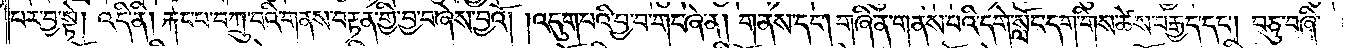པར་བྱ་སྟེ། འདི་ནི། རྐང་པ་བཀྲུ་བའི་གནས་བརྟན་གྱི་བྱ་བ་ཞེས་བྱའོ། །འདུག་པའི་བྱ་བ་གང་ཞེ་ན། གནས་དང༌། གཞི་ན་གནས་པའི་དགེ་སློང་དག་གིས་ཚེས་བརྒྱད་དང༌། བཅུ་བཞི་
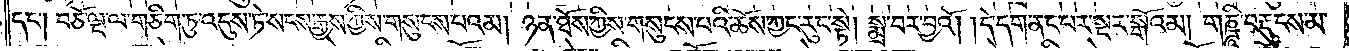དང༌། བཅོ་ལྔ་ལ་གཅིག་ཏུ་འདུས་ཏེ་སངས་རྒྱས་ཀྱིས་གསུངས་པའམ། ཉན་ཐོས་ཀྱིས་གསུངས་པའི་ཆོས་ཀྱང་རུང་སྟེ། སྨྲ་བར་བྱའོ། །དེ་དག་ནང་པར་སྔར་སྒོའམ། གཎྜཱི་བརྡུངས་མ་
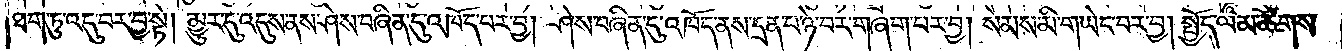ཐག་ཏུ་འདུ་བར་བྱ་སྟེ། མྱུར་དུ་འདུས་ནས་ཤེས་བཞིན་དུ་འཁོད་པར་བྱ། ཤེས་བཞིན་དུ་འཁོད་ནས་དྲན་པ་ཉེ་བར་གཞག་པར་བྱ། སེམས་མི་གཡེང་བར་བྱ། སྤྱོད་ལམ་ཚོགས་
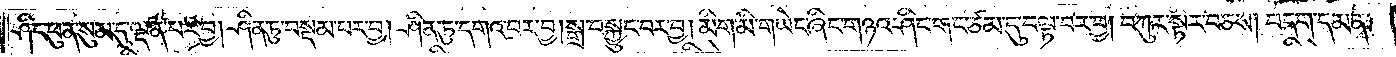ཤིང་ཕུན་སུམ་དུ་ལྡན་པར་བྱ། ཤིན་ཏུ་བསྡམ་པར་བྱ། ཤིན་ཏུ་དགའ་བར་བྱ། སྒྲ་བསྐྱུང་བར་བྱ། མིག་མི་གཡེང་ཞིང་གཉའ་ཤིང་གང་ཙམ་དུ་བལྟ་བར་བྱ། བཀུར་སྟིར་བཅས། བདག་དམན་
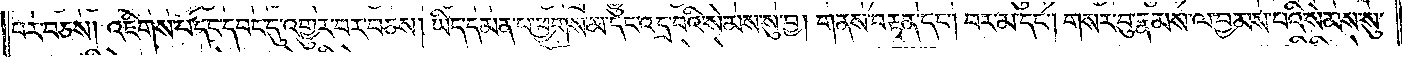པར་བཅས། འཇིགས་པ་དང་དབང་དུ་འགྱུར་བར་བཅས། ཡིད་དམན་པ་ཕྱགས་མ་དང་འདྲ་བའི་སེམས་སུ་བྱ། གནས་བརྟན་དང༌། བར་མ་དང༌། གསར་བུ་རྣམས་ལ་བྱམས་པའི་སེམས་སུ་
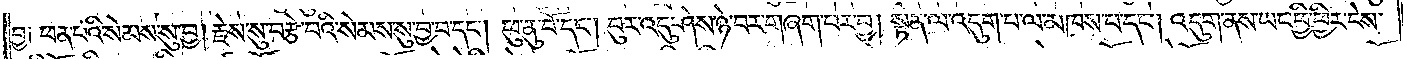བྱ། ཕན་པའི་སེམས་སུ་བྱ། རྗེས་སུ་བརྩེ་བའི་སེམས་སུ་བྱ་བ་དང༌། ཕུ་ནུ་བོ་དང༌། བུར་འདུ་ཤེས་ཉེ་བར་གཞག་པར་བྱ། སྟན་ལ་འདུག་པ་ལ་མཁས་པ་དང༌། འདུག་ནས་ཡང་ཕྱི་ཕྱིར་ངེས་
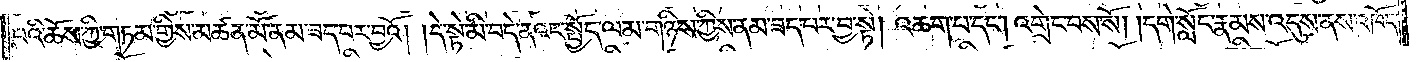པའི་ཆོས་ཀྱི་གཏམ་གྱིས་མཚན་མོ་ནམ་ཟད་པར་བྱའོ། །དེ་སྟེ་མི་བདེ་ནའང་སྤྱོད་ལམ་གཉིས་ཀྱིས་ནམ་ཟད་པར་བྱ་སྟེ། འཆག་པ་དང༌། འགྲེང་བས་སོ། །དགེ་སློང་རྣམས་འདུས་ནས་འཁོད་
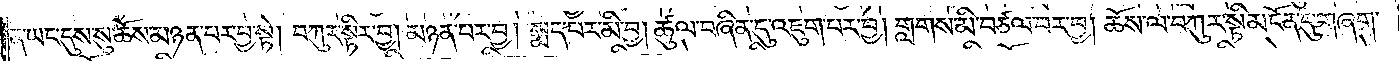ན་ཡང་དུས་སུ་ཆོས་མཉན་པར་བྱ་སྟེ། བཀུར་སྟིར་བྱ། མཉན་པར་བྱ། སྨད་པར་མི་བྱ། ཚུལ་བཞིན་དུ་འཇུག་པར་བྱ། གླགས་མི་བཙལ་བར་བྱ། ཆོས་ལ་བཀུར་སྟི་མངོན་དུ་གཞག་
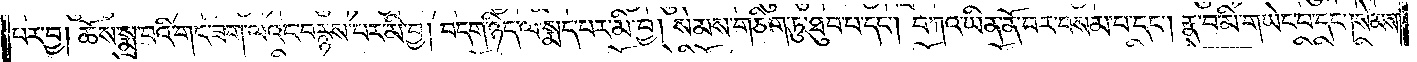པར་བྱ། ཆོས་སྨྲ་བའི་གང་ཟག་ལའང་བརྙས་པར་མི་བྱ། བདག་ཉིད་ལ་སྨད་པར་མི་བྱ། སེམས་གཅིག་ཏུ་ཐུབ་པ་དང༌། བཀའ་ཡིན་ནོ་བར་བསམ་པ་དང༌། རྣ་བ་མི་གཡེང་བ་དང༌། སེམས་
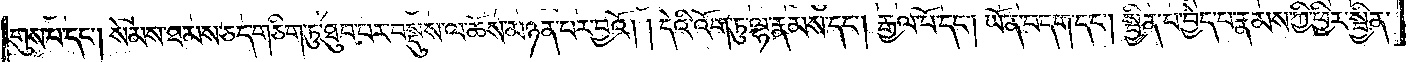གུས་པ་དང༌། སེམས་ཐམས་ཅད་གཅིག་ཏུ་ཐུབ་པར་བསྡུས་ལ་ཆོས་མཉན་པར་བྱའོ། །དེའི་འོག་ཏུ་ལྷ་རྣམས་དང༌། རྒྱལ་པོ་དང༌། ཡོན་བདག་དང༌། སྦྱིན་པ་བྱེད་པ་རྣམས་ཀྱི་ཕྱིར་སྦྱིན་
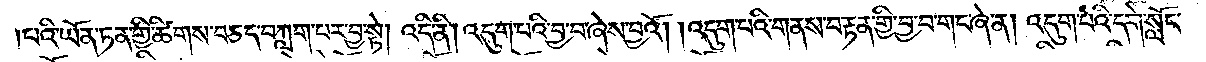པའི་ཡོན་ཏན་གྱི་ཚིགས་བཅད་བཀླག་པར་བྱ་སྟེ། འདི་ནི། འདུག་པའི་བྱ་བ་ཞེས་བྱའོ། །འདུག་པའི་གནས་བརྟན་གྱི་བྱ་བ་གང་ཞེ་ན། འདུག་པའི་དགེ་སློང་
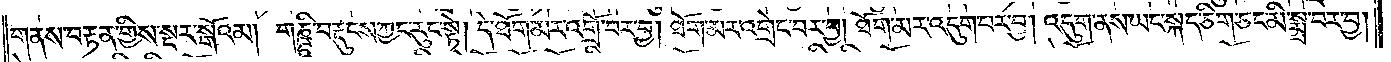གནས་བརྟན་གྱིས་སྔར་སྒོའམ། གཎྜཱི་བརྡུངས་ཀྱང་རུང་སྟེ། དེ་ཐོག་མར་འགྲོ་བར་བྱ། ཐོག་མར་འགྲེང་བར་བྱ། ཐོག་མར་འདུག་པར་བྱ། འདུག་ནས་ཡང་སྐད་ཅིག་ཅང་མི་སྨྲ་བར་བྱ།
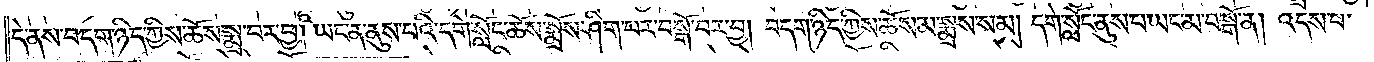དེ་ནས་བདག་ཉིད་ཀྱིས་ཆོས་སྨྲ་བར་བྱ། ཡང་ན་ནུས་པའི་དགེ་སློང་ཆོས་སྨྲོས་ཤིག་པར་བསྒོ་བར་བྱ། བདག་ཉིད་ཀྱིས་ཆོས་མ་སྨྲས་སམ། དགེ་སློང་ནུས་པ་ཡང་མ་བསྒོ་ན། འདས་པ་
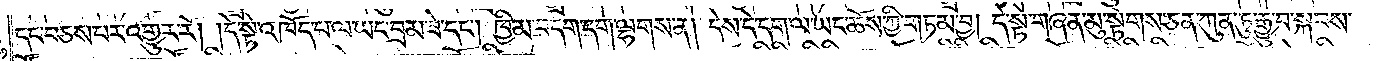དང་བཅས་པར་འགྱུར་རོ། །དེ་སྟེ་འཁོད་པ་ལ་ཡང་བྲམ་ཟེ་དང༌། ཁྱིམ་བདག་དག་ལྷགས་ན། དེས་དེ་དག་ལ་ཡང་ཆོས་ཀྱི་གཏམ་བྱ། དེ་སྟེ་གཞན་མུ་སྟེགས་ཅན་ཀུན་ཏུ་རྒྱུ་བ་སྐབས་
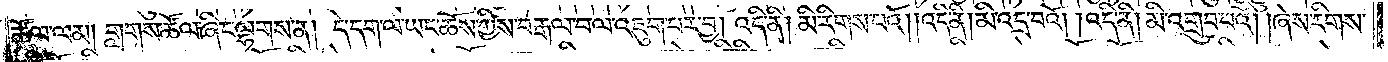ཚོལ་ལམ། གླགས་ཚོལ་ཞིང་ལྷགས་ན། དེ་དག་ལ་ཡང་ཆོས་ཀྱིས་བརྒལ་བ་ལ་འཇུག་པར་བྱ། འདི་ནི། མི་རིགས་པའོ། །འདི་ནི། མི་འདྲ་བའོ། །འདི་ནི། མི་འགྲུབ་པའོ། །ཞེས་རིགས་
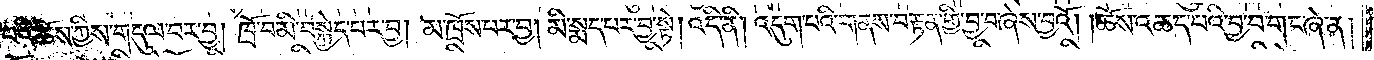པའི་ཆོས་ཀྱིས་གདུལ་བར་བྱ། ཁྲོ་བ་མི་བསྐྱེད་པར་བྱ། མ་ཁྲོས་པར་བྱ། མི་སྨད་པར་བྱ་སྟེ། འདི་ནི། འདུག་པའི་གནས་བརྟན་གྱི་བྱ་བ་ཞེས་བྱའོ། །ཆོས་འཆད་པའི་བྱ་བ་གང་ཞེ་ན།
